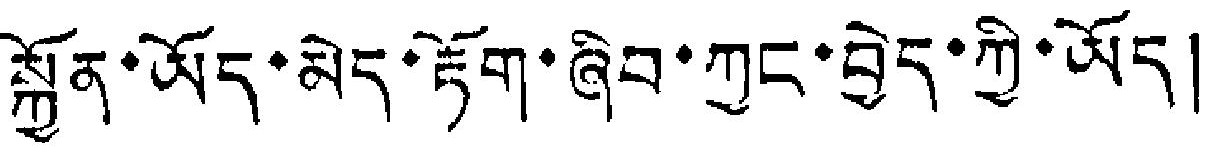སྐྱོན་ཡོད་མེད་རྟོག་ཞིབ་ཀྱང་བྱེད་ཀྱི་ཡོད།
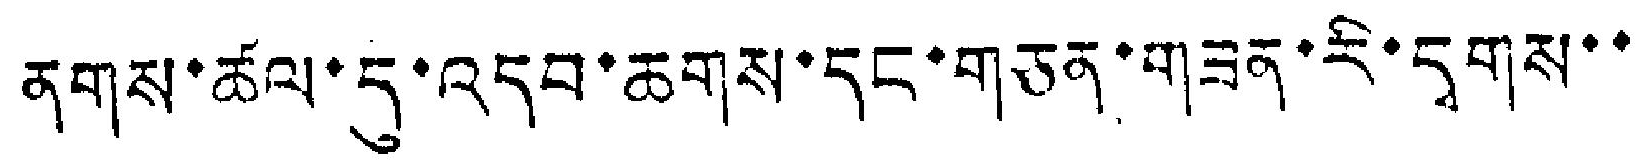ནགས་ཚལ་དུ་འདབ་ཆགས་དང་གཅན་གཟན་རི་དྭགས་་
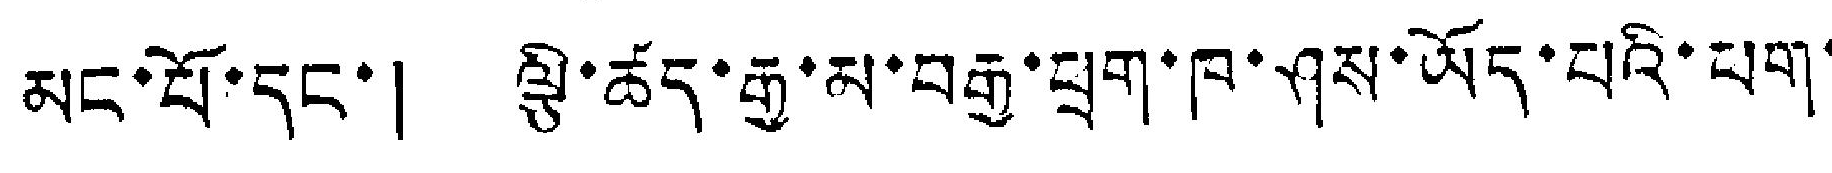མང་པོ་དང་། ལྕི་ཚད་རྒྱ་མ་བརྒྱ་ཕྲག་ཁ་ཤས་ཡོད་པའི་པག་
